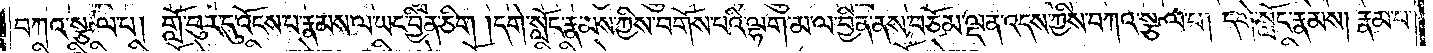བཀའ་སྩལ་པ། གློ་བུར་དུ་འོངས་པ་རྣམས་ལ་ཡང་བྱིན་ཅིག །དགེ་སློང་རྣམས་ཀྱིས་བགོས་པའི་ལྷག་མ་ལ་བྱིན་ནས་བཅོམ་ལྡན་འདས་ཀྱིས་བཀའ་སྩལ་པ། དགེ་སློང་རྣམས། རྣམ་པ་
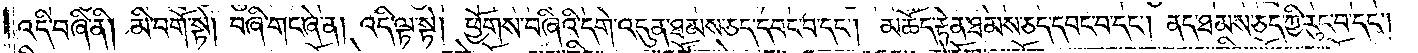འདི་བཞི་ནི། མི་བགོ་སྟེ། བཞི་གང་ཞེ་ན། འདི་ལྟ་སྟེ། ཕྱོགས་བཞིའི་དགེ་འདུན་ཐམས་ཅད་དབང་བ་དང༌། མཆོད་རྟེན་ཐམས་ཅད་དབང་བ་དང༌། ནད་ཐམས་ཅད་ཀྱི་རུང་བ་དང༌།
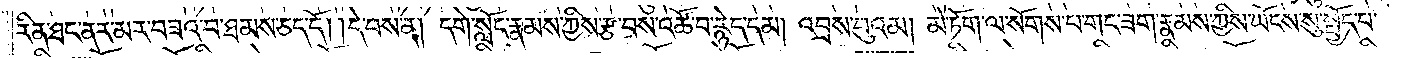རིན་ཐང་ནར་མར་བཟའ་བ་ཐམས་ཅད་དོ། །དེ་བས་ན། དགེ་སློང་རྣམས་ཀྱིས་རྩ་བས་འཚོ་བ་རྙེད་དམ། འབྲས་བུའམ། མེ་ཏོག་ལ་སོགས་པ་གང་ཟག་རྣམས་ཀྱིས་ཡོངས་སུ་སྤྱོད་པ་
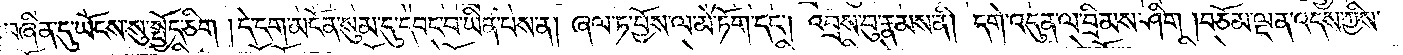བཞིན་དུ་ཡོང་སུ་སྤྱོད་ཅིག །དེ་དག་མངོན་སུམ་དུ་དབང་བ་ཡིན་པས་ན། ཞལ་ཏ་བྱོས་ལ་མེ་ཏོག་དང༌། འབྲས་བུ་རྣམས་ནི། དགེ་འདུན་ལ་བྲིམས་ཤིག། བཅོམ་ལྡན་འདས་ཀྱིས་
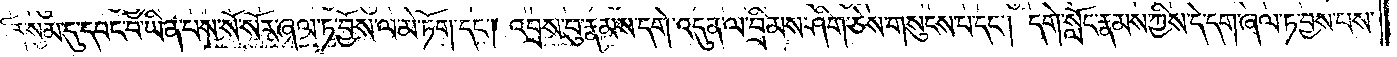མངོན་སུམ་དུ་དབང་བ་ཡིན་པས་སོ་སོར་ཞལ་ཏ་བྱོས་ལ་མེ་ཏོག་དང༌། འབྲས་བུ་རྣམས་དགེ་འདུན་ལ་བྲིམས་ཤིག་ཅེས་གསུངས་པ་དང༌། དགེ་སློང་རྣམས་ཀྱིས་དེ་དག་ཞལ་ཏ་བྱས་པས་
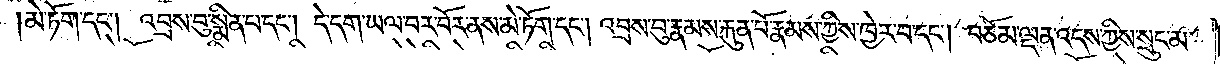མེ་ཏོག་དང༌། འབྲས་བུ་སྨིན་པ་དང༌། དེ་དག་ཡལ་བར་བོར་ནས་མེ་ཏོག་དང༌། འབྲས་བུ་རྣམས་རྐུན་པོ་རྣམས་ཀྱིས་ཁྱེར་བ་དང༌། བཅོམ་ལྡན་འདས་ཀྱིས་སྲུང་མ་
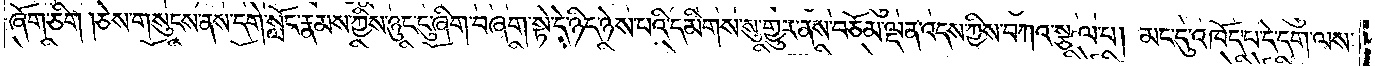ཞོག་ཅིག །ཅེས་གསུངས་ནས་དགེ་སློང་རྣམས་ཀྱིས་ཉུང་ངུ་ཞིག་བཞག་སྟེ་དེ་ཉིད་ཉེས་པའི་དམིགས་སུ་གྱུར་ནས་བཅོམ་ལྡན་འདས་ཀྱིས་བཀའ་སྩལ་པ། མང་དུ་འཁོད་པ་དེ་དག་ལས་
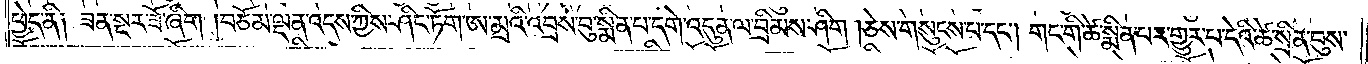ཕྱེད་ནི༑ ཟན་སྔར་ཟོ་ཞིག །བཅོམ་ལྡན་འདས་ཀྱིས་ཤིང་ཏོག་ཨ་མྲའི་འབྲས་བུ་སྨིན་པ་དགེ་འདུན་ལ་བྲིམས་ཤིག །ཅེས་གསུངས་པ་དང༌། གང་གི་ཚེ་སྨིན་པར་གྱུར་པ་དེའི་ཚེ་སྲིན་བུས་
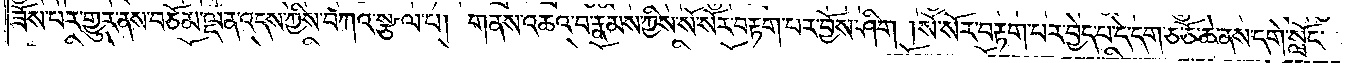ཟོས་པར་གྱུར་ནས་བཅོམ་ལྡན་འདས་ཀྱིས་བཀའ་སྩལ་པ། གནས་འཆའ་བ་རྣམས་ཀྱིས་སོ་སོར་བརྟག་པར་བྱོས་ཤིག །སོ་སོར་བརྟག་པར་བྱེད་པ་དེ་དག་ཅ་ཅོ་ཆེ་ནས་དགེ་སློང་
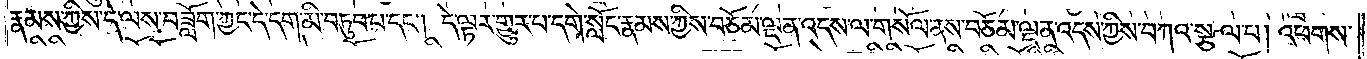རྣམས་ཀྱིས་དེ་ལས་བཟློག་ཀྱང་དེ་དག་མི་བཏུབ་པ་དང༌། དེ་ལྟར་གྱུར་པ་དགེ་སློང་རྣམས་ཀྱིས་བཅོམ་ལྡན་འདས་ལ་གསོལ་ནས་བཅོམ་ལྡན་འདས་ཀྱིས་བཀའ་སྩལ་པ། འཕགས་
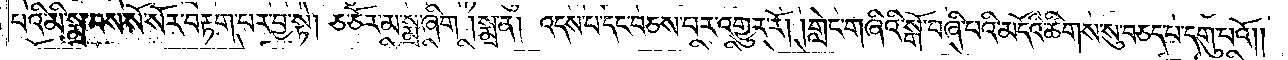པའི་མི་སྨྲ་བས་སོ་སོར་བརྟག་པར་བྱ་སྟེ། ཅ་ཅོར་མ་སྨྲ་ཞིག །སྨྲ་ན། འདས་པ་དང་བཅས་པར་འགྱུར་རོ། །གླེང་གཞིའི་སྒོ་བཞི་པའི་མདོའི་ཚིགས་སུ་བཅད་པ་དགུ་པའོ། །
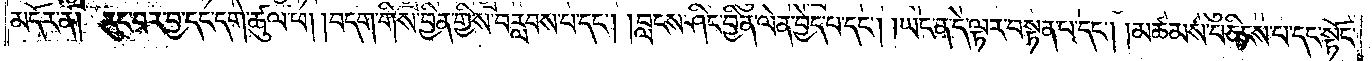མདོར་ན། རུང་བར་བྱ་དང་དགེ་ཚུལ་ཕ། །བདག་གིས་བྱིན་གྱིས་བརླབས་པ་དང༌། །བླངས་ཤིང་བྱིན་ལེན་བྱེད་པ་དང༌། །ཡང་ན་དེ་ལྟར་བསྟན་པ་དང༌། །མཚམས་བཅིངས་པ་དང་སྟོང་
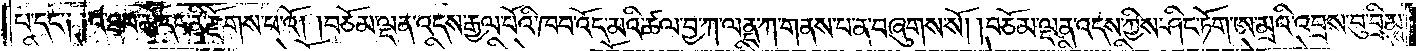པ་དང་༑ ༑འཐབ་མོ་དང་ནི་རྫོགས་པའོ། །བཅོམ་ལྡན་འདས་རྒྱལ་པོའི་ཁབ་འོད་མའི་ཚལ་བྱ་ཀ་ལནད་ཀ་གནས་པ་ན་བཞུགས་སོ། །བཅོམ་ལྡན་འདས་ཀྱིས་ཤིང་ཏོག་ཨ་མྲའི་འབྲས་བུ་བྲིམས་
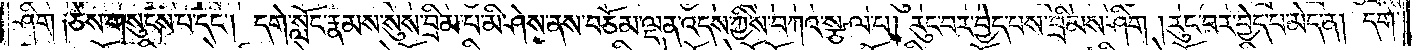ཤིག་༑ཅེས་གསུངས་པ་དང༌། དགེ་སློང་རྣམས་སུས་བྲིམ་པ་མི་ཤེས་ནས་བཅོམ་ལྡན་འདས་ཀྱིས་བཀའ་སྩལ་པ། རུང་བར་བྱེད་པས་བྲིམས་ཤིག །རུང་བར་བྱེད་པ་མེད་ན། དགེ་
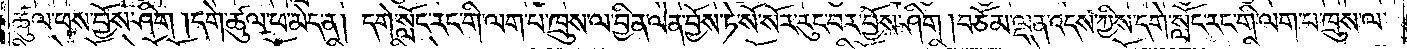ཚུལ་ཕས་བྱོས་ཤིག །དགེ་ཚུལ་ཕ་མེད་ན། དགེ་སློང་རང་གི་ལག་པ་ཁྲུས་ལ་བྱིན་ལེན་བྱོས་ཏེ་སོ་སོར་རུང་བར་བྱོས་ཤིག །བཅོམ་ལྡན་འདས་ཀྱིས་དགེ་སློང་རང་གི་ལག་པ་ཁྲུས་ལ་
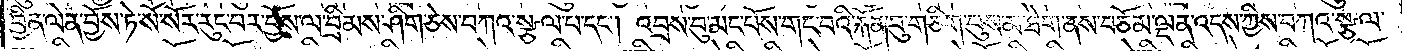བྱིན་ལེན་བྱོས་ཏེ་སོ་སོར་རུང་བར་བྱོས་ལ་བྲིམས་ཤིག་ཅེས་བཀའ་སྩལ་པ་དང༌། འབྲས་བུ་མང་པོས་གང་བའི་རྐོན་བུ་གཅིག་པུས་མ་ཐེག་ནས་བཅོམ་ལྡན་འདས་ཀྱིས་བཀའ་སྩལ་
